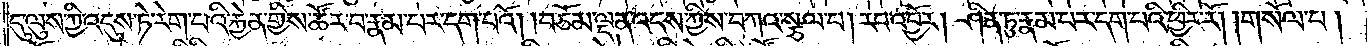དུ་ལུས་ཀྱི་འདུས་ཏེ་རེག་པའི་རྐྱེན་གྱིས་ཚོར་བ་རྣམ་པར་དག་པའོ། །བཅོམ་ལྡན་འདས་ཀྱིས་བཀའ་སྩལ་པ། རབ་འབྱོར། ཤིན་ཏུ་རྣམ་པར་དག་པའི་ཕྱིར་རོ། །གསོལ་པ།
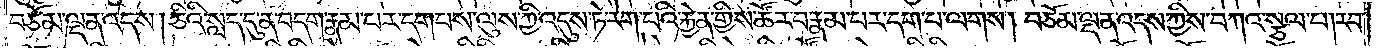བཅོམ་ལྡན་འདས། ཅིའི་སླད་དུ་ན་བདག་རྣམ་པར་དག་པས་ལུས་ཀྱི་འདུས་ཏེ་རེག་པའི་རྐྱེན་གྱིས་ཚོར་བ་རྣམ་པར་དག་པ་ལགས། བཅོམ་ལྡན་འདས་ཀྱིས་བཀའ་སྩལ་པ། རབ་
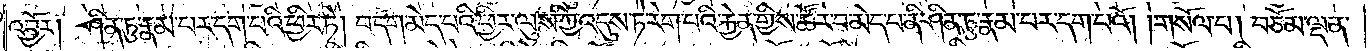འབྱོར། ཤིན་ཏུ་རྣམ་པར་དག་པའི་ཕྱིར་ཏེ། བདག་མེད་པའི་ཕྱིར་ལུས་ཀྱི་འདུས་ཏེ་རེག་པའི་རྐྱེན་གྱིས་ཚོར་བ་མེད་པ་ནི་ཤིན་ཏུ་རྣམ་པར་དག་པའོ། །གསོལ་པ། བཅོམ་ལྡན་
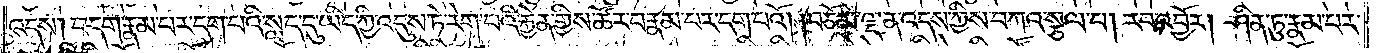འདས། བདག་རྣམ་པར་དག་པའི་སླད་དུ་ཡིད་ཀྱི་འདུས་ཏེ་རེག་པའི་རྐྱེན་གྱིས་ཚོར་བ་རྣམ་པར་དག་པའོ། །བཅོམ་ལྡན་འདས་ཀྱིས་བཀའ་སྩལ་པ། རབ་འབྱོར། ཤིན་ཏུ་རྣམ་པར་
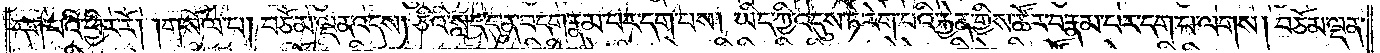དག་པའི་ཕྱིར་རོ། །གསོལ་པ། བཅོམ་ལྡན་འདས། ཅིའི་སླད་དུ་ན་བདག་རྣམ་པར་དག་པས། ཡིད་ཀྱི་འདུས་ཏེ་རེག་པའི་རྐྱེན་གྱིས་ཚོར་བ་རྣམ་པར་དག་པ་ལགས། བཅོམ་ལྡན་
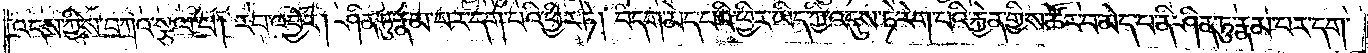འདས་ཀྱིས་བཀའ་སྩལ་པ། རབ་འབྱོར། ཤིན་ཏུ་རྣམ་པར་དག་པའི་ཕྱིར་ཏེ། བདག་མེད་པའི་ཕྱིར་ཡིད་ཀྱི་འདུས་ཏེ་རེག་པའི་རྐྱེན་གྱིས་ཚོར་བ་མེད་པ་ནི་ཤིན་ཏུ་རྣམ་པར་དག་
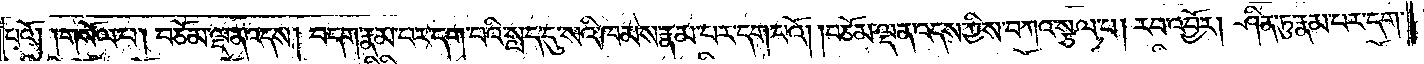པའོ། །གསོལ་པ། བཅོམ་ལྡན་འདས། བདག་རྣམ་པར་དག་པའི་སླད་དུ་སའི་ཁམས་རྣམ་པར་དག་པའོ། །བཅོམ་ལྡན་འདས་ཀྱིས་བཀའ་སྩལ་པ། རབ་འབྱོར། ཤིན་ཏུ་རྣམ་པར་དག་
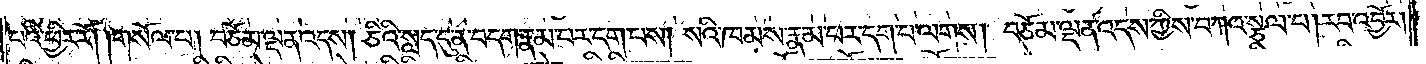པའི་ཕྱིར་རོ། །གསོལ་པ། བཅོམ་ལྡན་འདས། ཅིའི་སླད་དུ་ན་བདག་རྣམ་པར་དག་པས། སའི་ཁམས་རྣམ་པར་དག་པ་ལགས། བཅོམ་ལྡན་འདས་ཀྱིས་བཀའ་སྩལ་པ། རབ་འབྱོར།
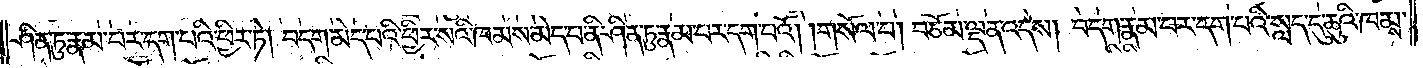ཤིན་ཏུ་རྣམ་པར་དག་པའི་ཕྱིར་ཏེ། བདག་མེད་པའི་ཕྱིར་སའི་ཁམས་མེད་པ་ནི་ཤིན་ཏུ་རྣམ་པར་དག་པའོ། །གསོལ་པ། བཅོམ་ལྡན་འདས། བདག་རྣམ་པར་དག་པའི་སླད་དུ་ཆུའི་ཁམས་
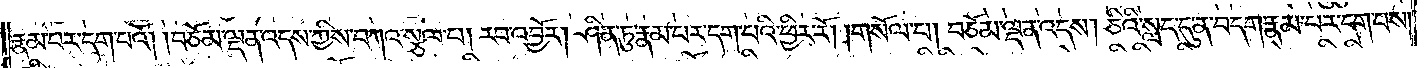རྣམ་པར་དག་པའོ། །བཅོམ་ལྡན་འདས་ཀྱིས་བཀའ་སྩལ་པ། རབ་འབྱོར། ཤིན་ཏུ་རྣམ་པར་དག་པའི་ཕྱིར་རོ། །གསོལ་པ། བཅོམ་ལྡན་འདས། ཅིའི་སླད་དུ་ན་བདག་རྣམ་པར་དག་པས།
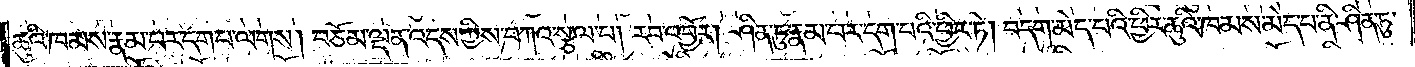ཆུའི་ཁམས་རྣམ་པར་དག་པ་ལགས། བཅོམ་ལྡན་འདས་ཀྱིས་བཀའ་སྩལ་པ། རབ་འབྱོར། ཤིན་ཏུ་རྣམ་པར་དག་པའི་ཕྱིར་ཏེ། བདག་མེད་པའི་ཕྱིར་ཆུའི་ཁམས་མེད་པ་ནི་ཤིན་ཏུ་
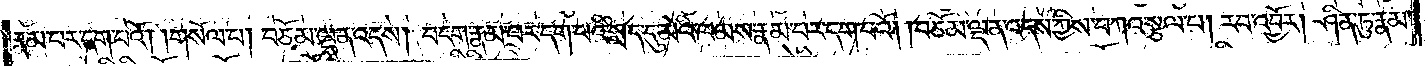རྣམ་པར་དག་པའོ། །གསོལ་པ། བཅོམ་ལྡན་འདས། བདག་རྣམ་པར་དག་པའི་སླད་དུ་མེའི་ཁམས་རྣམ་པར་དག་པའོ། །བཅོམ་ལྡན་འདས་ཀྱིས་བཀའ་སྩལ་པ། རབ་འབྱོར། ཤིན་ཏུ་རྣམ་
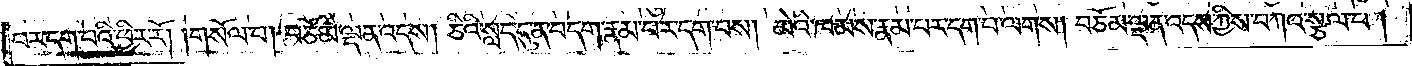པར་དག་པའི་ཕྱིར་རོ། །གསོལ་པ། བཅོམ་ལྡན་འདས། ཅིའི་སླད་དུ་ན་བདག་རྣམ་པར་དག་པས། མེའི་ཁམས་རྣམ་པར་དག་པ་ལགས། བཅོམ་ལྡན་འདས་ཀྱིས་བཀའ་སྩལ་པ།
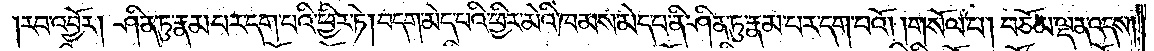རབ་འབྱོར། ཤིན་ཏུ་རྣམ་པར་དག་པའི་ཕྱིར་ཏེ། བདག་མེད་པའི་ཕྱིར་མེའི་ཁམས་མེད་པ་ནི་ཤིན་ཏུ་རྣམ་པར་དག་པའོ། །གསོལ་པ། བཅོམ་ལྡན་འདས།
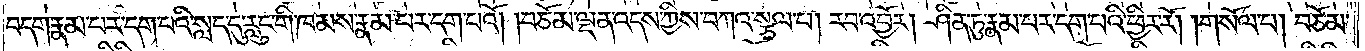བདག་རྣམ་པར་དག་པའི་སླད་དུ་རླུང་གི་ཁམས་རྣམ་པར་དག་པའོ། །བཅོམ་ལྡན་འདས་ཀྱིས་བཀའ་སྩལ་པ། རབ་འབྱོར། ཤིན་ཏུ་རྣམ་པར་དག་པའི་ཕྱིར་རོ། །གསོལ་པ། བཅོམ་
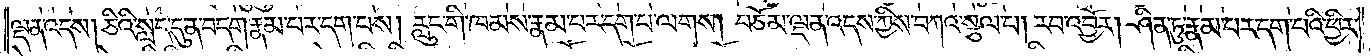ལྡན་འདས། ཅིའི་སླད་དུ་ན་བདག་རྣམ་པར་དག་པས། རླུང་གི་ཁམས་རྣམ་པར་དག་པ་ལགས། བཅོམ་ལྡན་འདས་ཀྱིས་བཀའ་སྩལ་པ། རབ་འབྱོར། ཤིན་ཏུ་རྣམ་པར་དག་པའི་ཕྱིར་
